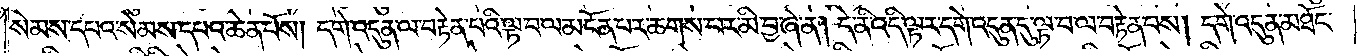སེམས་དཔའ་སེམས་དཔའ་ཆེན་པོས། དགེ་འདུན་ལ་བརྟེན་པའི་ལྟ་བ་ལ་མངོན་པར་ཆགས་པར་མི་བྱ་ཞེ་ན། དེ་ནི་འདི་ལྟར་དགེ་འདུན་དུ་ལྟ་བ་ལ་བརྟེན་པས། དགེ་འདུན་མཐོང་
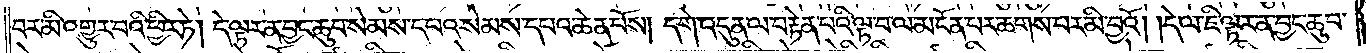བར་མི་འགྱུར་བའི་ཕྱིར་ཏེ། དེ་ལྟར་ན་བྱང་ཆུབ་སེམས་དཔའ་སེམས་དཔའ་ཆེན་པོས། དགེ་འདུན་ལ་བརྟེན་པའི་ལྟ་བ་ལ་མངོན་པར་ཆགས་པར་མི་བྱའོ། །དེ་ལ་ཇི་ལྟར་ན་བྱང་ཆུབ་
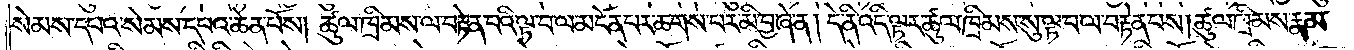སེམས་དཔའ་སེམས་དཔའ་ཆེན་པོས། ཚུལ་ཁྲིམས་ལ་བརྟེན་པའི་ལྟ་བ་ལ་མངོན་པར་ཆགས་པར་མི་བྱ་ཞེ་ན། དེ་ནི་འདི་ལྟར་ཚུལ་ཁྲིམས་སུ་ལྟ་བ་ལ་བརྟེན་པས། ཚུལ་ཁྲིམས་རྣམ་
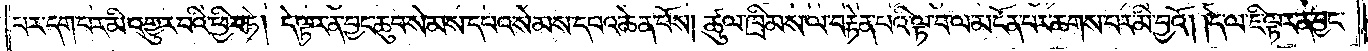པར་དག་པར་མི་འགྱུར་བའི་ཕྱིར་ཏེ། དེ་ལྟར་ན་བྱང་ཆུབ་སེམས་དཔའ་སེམས་དཔའ་ཆེན་པོས། ཚུལ་ཁྲིམས་ལ་བརྟེན་པའི་ལྟ་བ་ལ་མངོན་པར་ཆགས་པར་མི་བྱའོ། །དེ་ལ་ཇི་ལྟར་ན་བྱང་
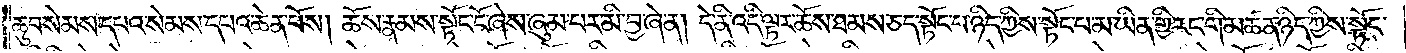ཆུབ་སེམས་དཔའ་སེམས་དཔའ་ཆེན་པོས། ཆོས་རྣམས་སྟོང་ངོ་ཞེས་ཞུམ་པར་མི་བྱ་ཞེ་ན། དེ་ནི་འདི་ལྟར་ཆོས་ཐམས་ཅད་སྟེང་པ་ཉིད་ཀྱིས་སྟོང་པ་མ་ཡིན་གྱི་རང་གི་མཚན་ཉིད་ཀྱིས་སྟོང་
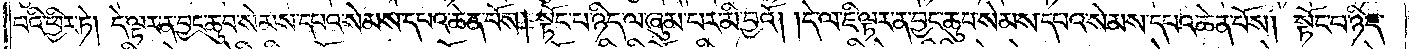པའི་ཕྱིར་ཏེ། དེ་ལྟར་ན་བྱང་ཆུབ་སེམས་དཔའ་སེམས་དཔའ་ཆེན་པོས། སྟོང་པ་ཉིད་ལ་ཞུམ་པར་མི་བྱའོ། །དེ་ལ་ཇི་ལྟར་ན་བྱང་ཆུབ་སེམས་དཔའ་སེམས་དཔའ་ཆེན་པོས། སྟོང་པ་ཉིད་
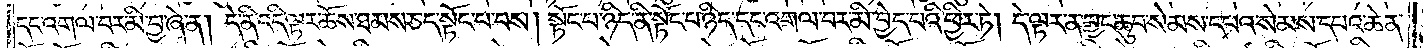དང་འགལ་བར་མི་བྱ་ཞེ་ན། དེ་ནི་འདི་ལྟར་ཆོས་ཐམས་ཅད་སྟོང་པ་བས། སྟོང་པ་ཉིད་ནི་སྟོང་པ་ཉིད་དང་འགལ་བར་མི་བྱེད་པའི་ཕྱིར་ཏེ། དེ་ལྟར་ན་བྱང་ཆུབ་སེམས་དཔའ་སེམས་དཔའ་ཆེན་
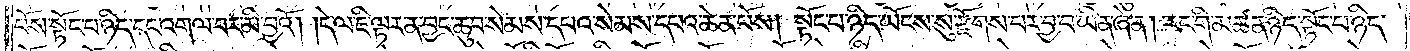པོས་སྟོང་པ་ཉིད་དང་འགལ་བར་མི་བྱའོ། །དེ་ལ་ཇི་ལྟར་ན་བྱང་ཆུབ་སེམས་དཔའ་སེམས་དཔའ་ཆེན་པོས། སྟོང་པ་ཉིད་ཡོངས་སུ་རྫོགས་པར་བྱ་བ་ཡིན་ཞེ་ན། རང་གི་མཚན་ཉིད་སྟོང་པ་ཉིད་
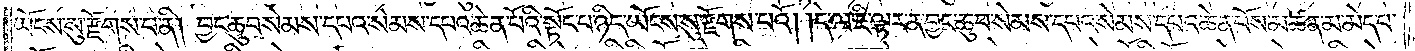ཡོངས་སུ་རྫོགས་པ་ནི། བྱང་ཆུབ་སེམས་དཔའ་སེམས་དཔའ་ཆེན་པོའི་སྟོང་པ་ཉིད་ཡོངས་སུ་རྫོགས་པའོ། །དེ་ལ་ཇི་ལྟར་ན་བྱང་ཆུབ་སེམས་དཔའ་སེམས་དཔའ་ཆེན་པོས་མཚན་མ་མེད་པ་
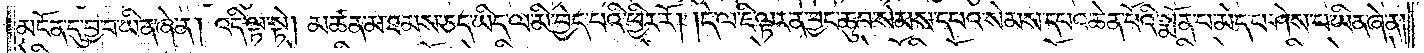མངོན་དུ་བྱ་བ་ཡིན་ཞེ་ན། འདི་ལྟ་སྟེ། མཚན་མ་ཐམས་ཅད་ཡིད་ལ་མི་བྱེད་པའི་ཕྱིར་རོ། །དེ་ལ་ཇི་ལྟར་ན་བྱང་ཆུབ་སེམས་དཔའ་སེམས་དཔའ་ཆེན་པོའི་སྨོན་པ་མེད་པ་ཤེས་པ་ཡིན་ཞེ་ན།
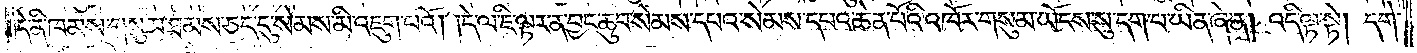དེ་ནི་ཁམས་གསུམ་ཐམས་ཅད་དུ་སེམས་མི་འཇུག་པའོ། །དེ་ལ་ཇི་ལྟར་ན་བྱང་ཆུབ་སེམས་དཔའ་སེམས་དཔའ་ཆེན་པོའི་འཁོར་གསུམ་ཡོངས་སུ་དག་པ་ཡིན་ཞེ་ན། འདི་ལྟ་སྟེ། དགེ་
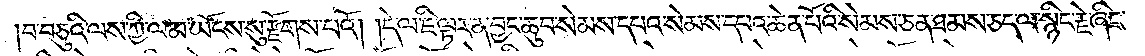བ་བཅུའི་ལས་ཀྱི་ལམ་ཡོངས་སུ་རྫོགས་པའོ། །དེ་ལ་ཇི་ལྟར་ན་བྱང་ཆུབ་སེམས་དཔའ་སེམས་དཔའ་ཆེན་པོའི་སེམས་ཅན་ཐམས་ཅད་ལ་སྙིང་རྗེ་ཞིང་
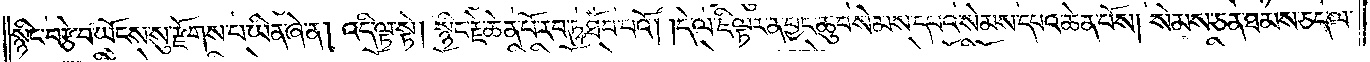སྙིང་བརྩེ་བ་ཡོངས་སུ་རྫོགས་པ་ཡིན་ཞེ་ན། འདི་ལྟ་སྟེ། སྙིང་རྗེ་ཆེན་པོ་རབ་ཏུ་ཐོབ་པའོ། །དེ་ལ་ཇི་ལྟར་ན་བྱང་ཆུབ་སེམས་དཔའ་སེམས་དཔའ་ཆེན་པོས། སེམས་ཅན་ཐམས་ཅད་ལ་
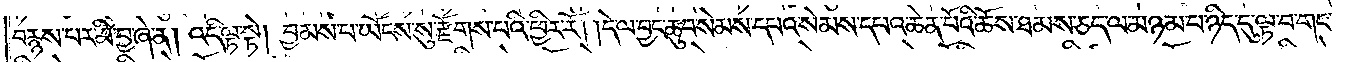བརྙས་པར་མི་བྱ་ཞེ་ན། འདི་ལྟ་སྟེ། བྱམས་པ་ཡོངས་སུ་རྫོགས་པའི་ཕྱིར་རོ། །དེ་ལ་བྱང་ཆུབ་སེམས་དཔའ་སེམས་དཔའ་ཆེན་པོའི་ཆོས་ཐམས་ཅད་ལ་མཉམ་པ་ཉིད་དུ་ལྟ་བ་གང་
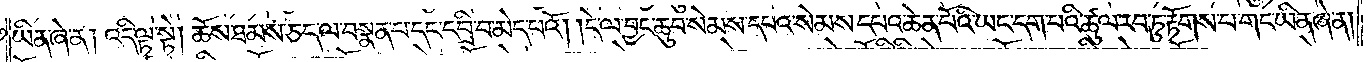ཡིན་ཞེ་ན། འདི་ལྟ་སྟེ། ཆོས་ཐམས་ཅད་ལ་བསྣན་པ་དང་བྲི་བ་མེད་པའོ། །དེ་ལ་བྱང་ཆུབ་སེམས་དཔའ་སེམས་དཔའ་ཆེན་པོའི་ཡང་དག་པའི་ཚུལ་རབ་ཏུ་རྟོགས་པ་གང་ཡིན་ཞེ་ན།
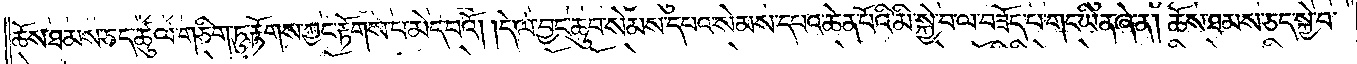ཆོས་ཐམས་ཅད་ཚུལ་གཅིག་ཏུ་རྟོགས་ཀྱང་རྟོགས་པ་མེད་པའོ། །དེ་ལ་བྱང་ཆུབ་སེམས་དཔའ་སེམས་དཔའ་ཆེན་པོའི་མི་སྐྱེ་བ་ལ་བཟོད་པ་གང་ཡིན་ཞེ་ན། ཆོས་ཐམས་ཅད་སྐྱེ་བ་
